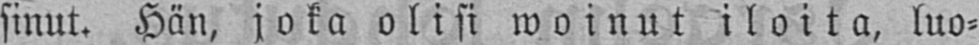sinut. Hän, joka olisi woinut iloita, luo-
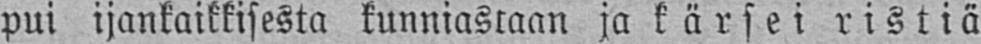pui ijankaikkisesta kunniastaan ja kärsei ristiä
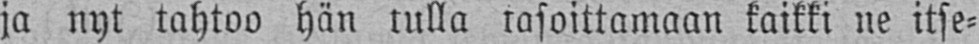ja nyt tahtoo hän lulla tasoittamaan kaikki ne itse-
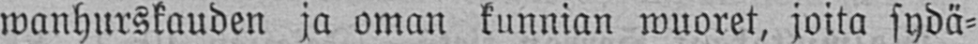wanhurskauden ja oman kunnian wuoret, joita sydä-
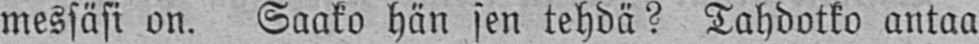messäsi on. Saako hän sen tehdä? Tahdotko antaa
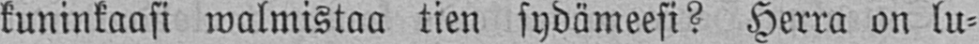kuninkaasi walmistaa tien sydämeesi? Herra on lu-
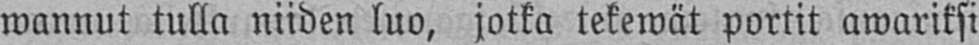wannut tulla niiden luo, jotka tekewät portit awariksi
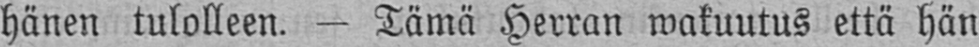hänen tulolleen. — Tämä Herran wakuutus että hän
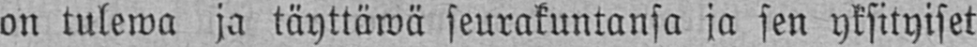on tulewa ja täyttäwä seurakuntansa ja sen yksityiset
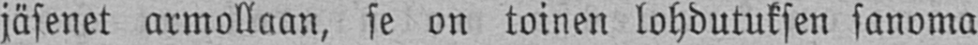jäsenet armollaan, se on toinen lohdutuksen sanoma
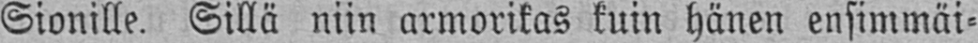Sionille. Sillä niin armorikas kuin hänen ensimmäi-
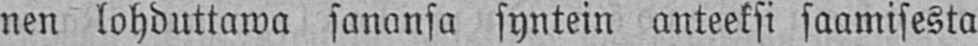nen lohduttawa sanansa syntein anteeksi saamisesta
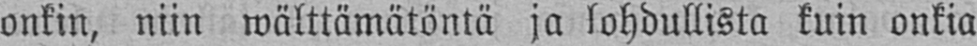onkin, niin wälttämätöntä ja lohdullista kuin onkia
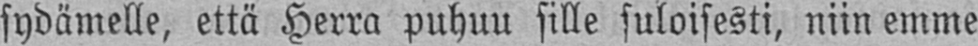sydämelle, että Herra puhuu sille suloisesti, niin emme
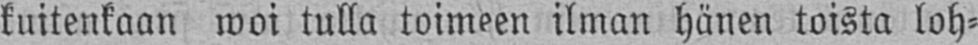kuitenkaan woi tulla toimeen ilman hänen toista loh-
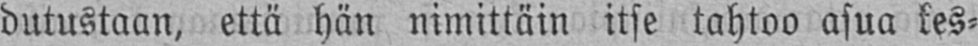dutustaan, että hän nimittäin itse tahtoo asua kes-
